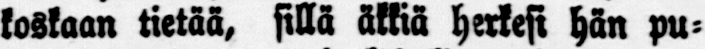koskaan tietää, sillä äkkiä herkesi hän pu-
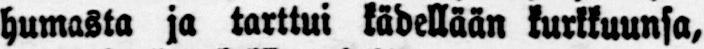humasta ja tarttui kädellään kurkkuunsa,
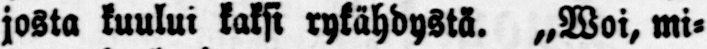josta kuului kaksi rykähdystä. „Woi, mi-
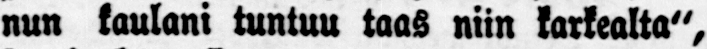nun kaulani tuntuu taas niin karkealta",
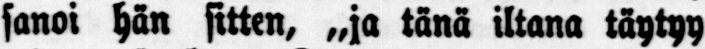sanoi hän sitten, „ja tänä iltana täytyy
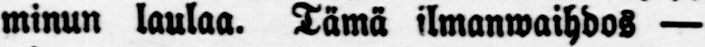minun laulaa. Tämä ilmanwaihdos —
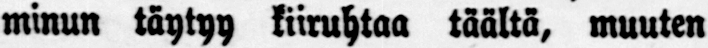minun täytyy kiiruhtaa täältä, muuten
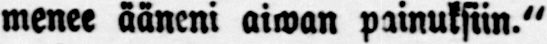menee ääneni aiwan painuksiin."
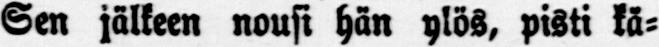Sen jälkeen nousi hän ylös, pisti kä-
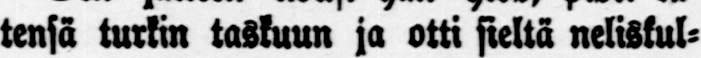tensä turkin taskuun ja otti sieltä neliskul-
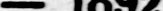No 140. — 1892
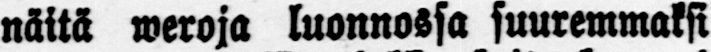näitä weroja luonnossa suuremmaksi
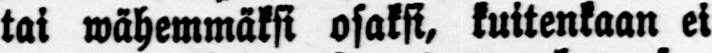tai wähemmäksi osaksi, kuitenkaan ei
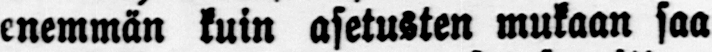enemmän kuin asetusten mukaan saa
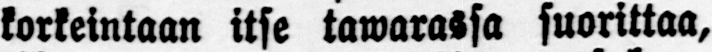korkeintaan itse tawarassa suorittaa,
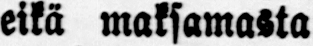eikä maksamasta niitä jommassakum-
